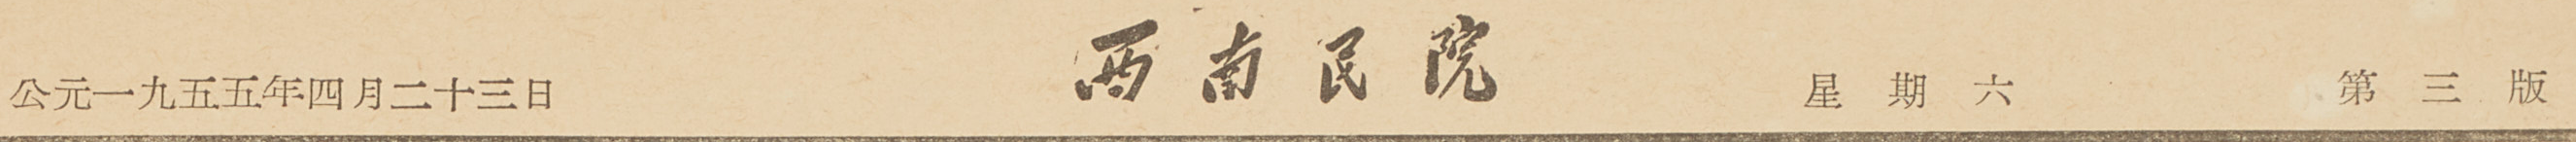公元一九五五年四月二十三日 西南民院 星期六 第三版
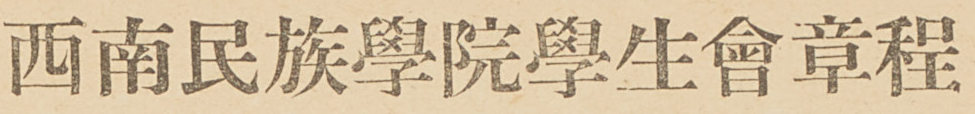西南民族學院學生會章程
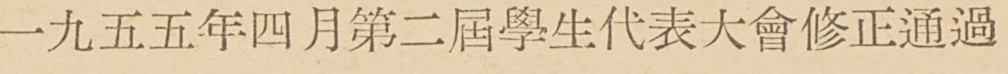一九五五年四月第二屆學生代表大會修正通過
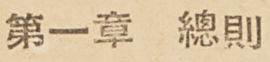第一章 總則
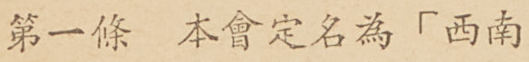第一條 本會定名為「西南
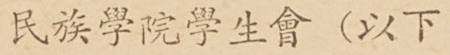民族學院學生會（以下
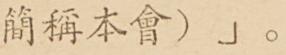簡稱本會）」。
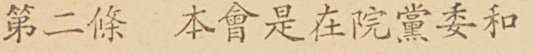第二條 本會是在院黨委和
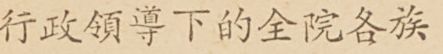行政領導下的全院各族
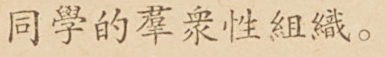同學的羣衆性組織。
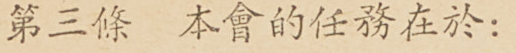第三條 本會的任務在於：
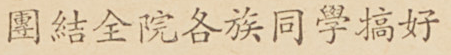團結全院各族同學搞好
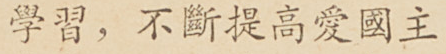學習，不斷提高愛國主
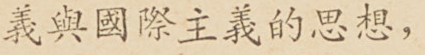義與國際主義的思想，
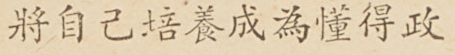將自己培養成為懂得政
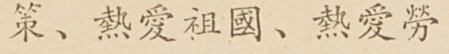策、熱愛祖國、熱愛勞
